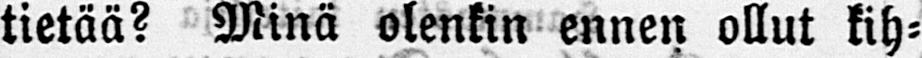tietää? Minä olenkin ennen ollut kih-
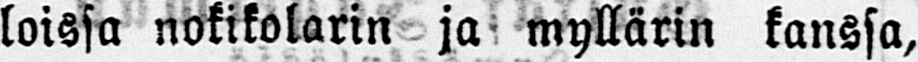loissa nokikolarin ja myllärin kanssa,
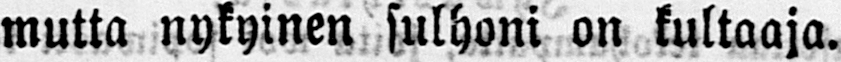mutta nykyinen sulhoni on kultaaja.
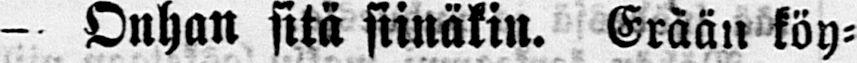- Onhan sitä siinäkin. Erään köy-
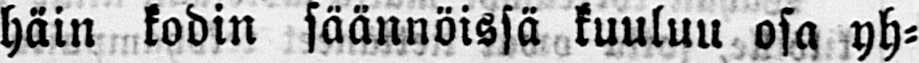häin kodin säännöissä kuuluu osa yh-
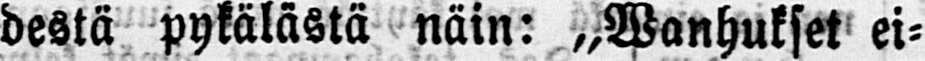destä pykälästä näin: „ -Wanhukset ei-
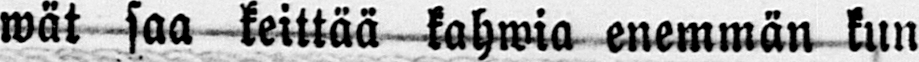wät saa keittää kahwia enemmän kun
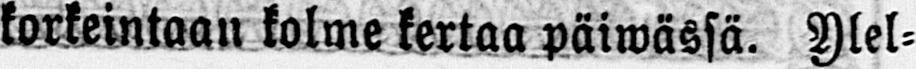korkeintaan kolme kertaa päiwässä. Ylel-
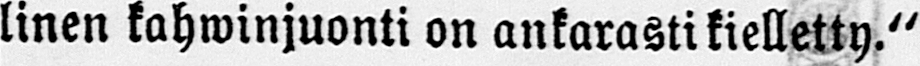linen kahwinjuonti on ankarasti kielletty."
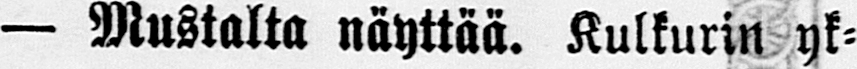— Mustalta näyttää. Kulkurin yk-
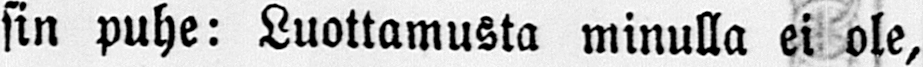sin puhe: Luottamusta minulla ei ole,
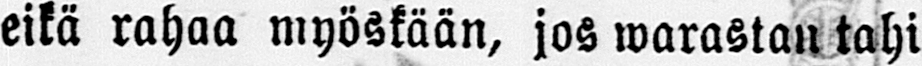eikä rahaa myöskään, jos warastan tahi
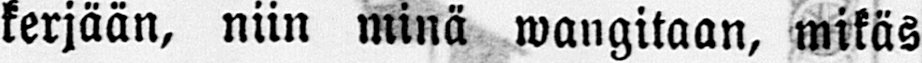kerjään, niin minä wangitaan, mikäs
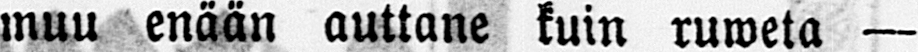muu enään auttane kuin ruweta —
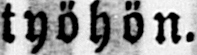työhön.
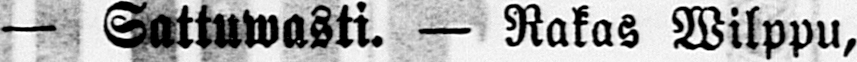— Sattuwasti. — Rakas Wilppu,
